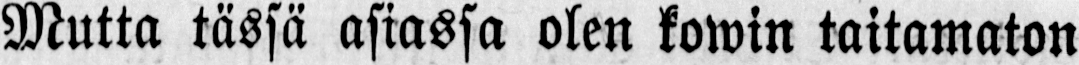Mutta tässä asiassa olen kowin taitamaton
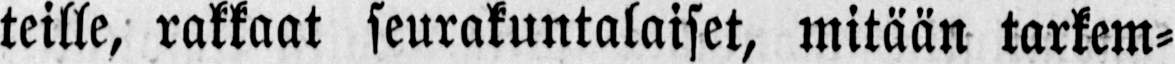teille, rakkaat seurakuntalaiset, mitään tarkem-
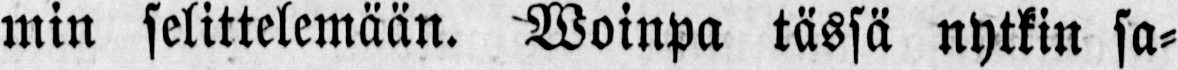min selittelemään. Woinpa tässä nytkin sa-
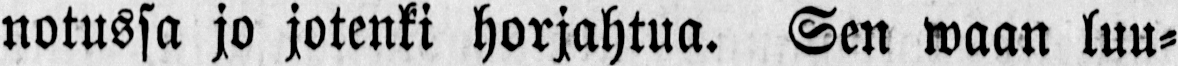notussa jo jotenki horjahtua. Sen waan luu-
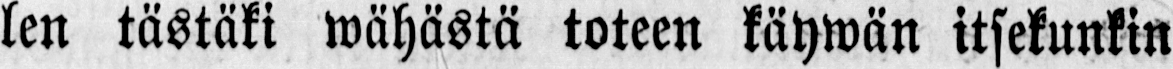len tästäki wähästä toteen käywän itsekunkin
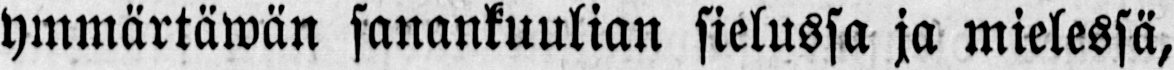ymmärtäwän sanankuulian sielussa ja mielessä,
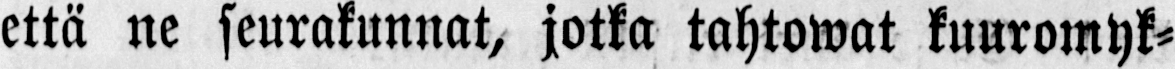että ne seurakunnat, jotka tahtowat kuuromyk-
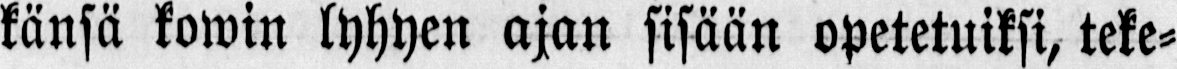känsä kowin lyhyen ajan sisään opetetuiksi, teke-
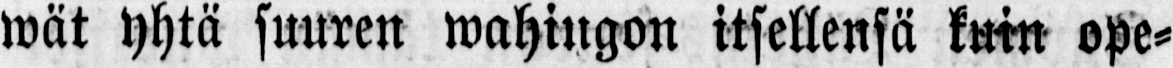wät yhtä suuren wahingon itsellensä kuin ope-
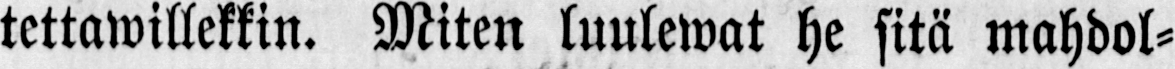tettawillekkin. Miten luulewat he sitä mahdol-
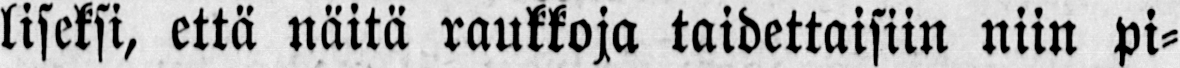liseksi, että näitä raukkoja taidettaisiin niin pi-
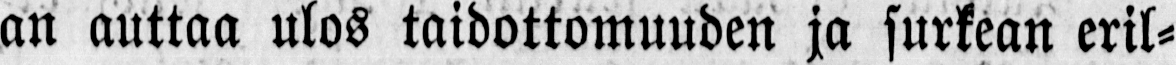an auttaa ulos taidottomuuden ja surkean eril-
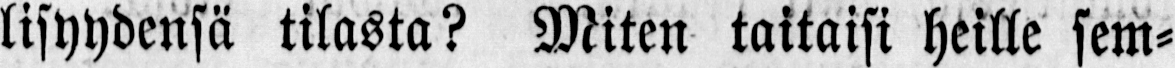lisyydensä tilasta? Miten taitaisi heille sem-
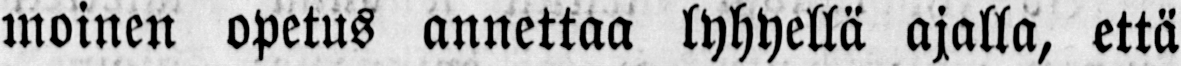moinen opetus annettaa lyhyellä ajalla, että
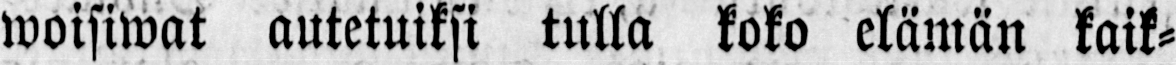woisiwat autetuiksi tulla koko elämän kaik-
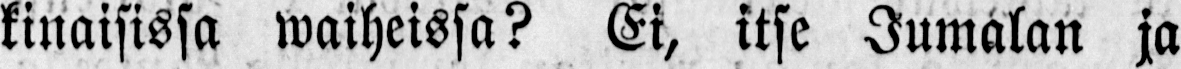kinaisissa waiheissa? Ei, itse Jumalan ja
